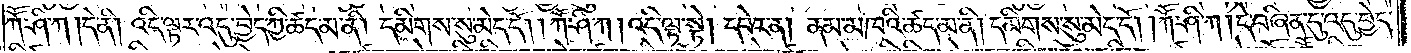ཀཽ་ཤི་ཀ །དེ་ནི། འདི་ལྟར་འདུ་བྱེད་ཀྱི་ཚད་མ་ནི། དམིགས་སུ་མེད་དོ། །ཀཽ་ཤི་ཀ །འདི་ལྟ་སྟེ། དཔེར་ན། ནམ་མཁའི་ཚད་མ་ནི། དམིགས་སུ་མེད་དོ། །ཀཽ་ཤི་ཀ །དེ་བཞིན་དུ་འདུ་བྱེད་
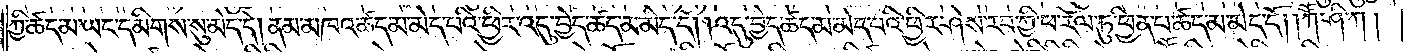ཀྱི་ཚད་མ་ཡང་དམིགས་སུ་མེད་དེ། ནམ་མཁའ་ཚད་མ་མེད་པའི་ཕྱིར་འདུ་བྱེད་ཚད་མ་མེད་དོ། །འདུ་བྱེད་ཚད་མ་མེད་པའི་ཕྱིར་ཤེས་རབ་ཀྱི་ཕ་རོལ་ཏུ་ཕྱིན་པ་ཚད་མ་མེད་དོ། །ཀཽ་ཤི་ཀ།
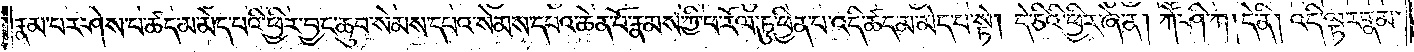རྣམ་པར་ཤེས་པ་ཚད་མ་མེད་པའི་ཕྱིར་བྱང་ཆུབ་སེམས་དཔའ་སེམས་དཔའ་ཆེན་པོ་རྣམས་ཀྱི་ཕ་རོལ་ཏུ་ཕྱིན་པ་འདི་ཚད་མ་མེད་པ་སྟེ། དེ་ཅིའི་ཕྱིར་ཞེ་ན། ཀཽ་ཤི་ཀ །དེ་ནི། འདི་ལྟར་རྣམ་
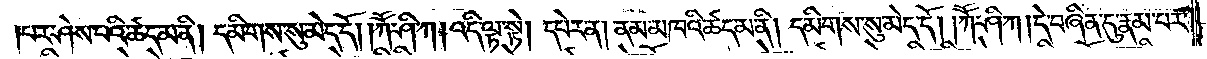པར་ཤེས་པའི་ཚད་མ་ནི། དམིགས་སུ་མེད་དོ། །ཀཽ་ཤི་ཀ །འདི་ལྟ་སྟེ། དཔེར་ན། ནམ་མཁའི་ཚད་མ་ནི། དམིགས་སུ་མེད་དོ། །ཀཽ་ཤི་ཀ །དེ་བཞིན་དུ་རྣམ་པར་
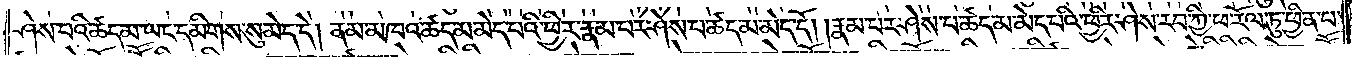ཤེས་པའི་ཚད་མ་ཡང་དམིགས་སུ་མེད་དེ། ནམ་མཁའ་ཚད་མ་མེད་པའི་ཕྱིར་རྣམ་པར་ཤེས་པ་ཚད་མ་མེད་དོ། །རྣམ་པར་ཤེས་པ་ཚད་མ་མེད་པའི་ཕྱིར་ཤེས་རབ་ཀྱི་ཕ་རོལ་ཏུ་ཕྱིན་པ་
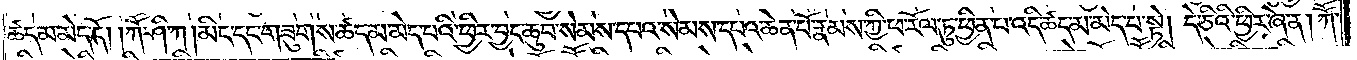ཚད་མ་མེད་དོ། །ཀཽ་ཤི་ཀ །མིང་དང་གཟུགས་ཚད་མ་མེད་པའི་ཕྱིར་བྱང་ཆུབ་སེམས་དཔའ་སེམས་དཔའ་ཆེན་པོ་རྣམས་ཀྱི་ཕ་རོལ་ཏུ་ཕྱིན་པ་འདི་ཚད་མ་མེད་པ་སྟེ། དེ་ཅིའི་ཕྱིར་ཞེ་ན། ཀཽ་
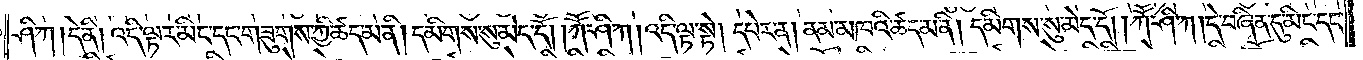ཤི་ཀ །དེ་ནི། འདི་ལྟར་མིང་དང་གཟུགས་ཀྱི་ཚད་མ་ནི། དམིགས་སུ་མེད་དོ། །ཀཽ་ཤི་ཀ །འདི་ལྟ་སྟེ། དཔེར་ན། ནམ་མཁའི་ཚད་མ་ནི། དམིགས་སུ་མེད་དོ། །ཀཽ་ཤི་ཀ །དེ་བཞིན་དུ་མིང་དང་
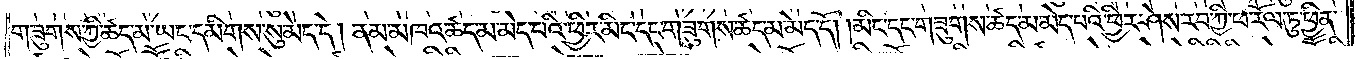གཟུགས་ཀྱི་ཚད་མ་ཡང་དམིགས་སུ་མེད་དེ། ནམ་མཁའ་ཚད་མ་མེད་པའི་ཕྱིར་མིང་དང་གཟུགས་ཚད་མ་མེད་དོ། །མིང་དང་གཟུགས་ཚད་མ་མེད་པའི་ཕྱིར་ཤེས་རབ་ཀྱི་ཕ་རོལ་ཏུ་ཕྱིན་
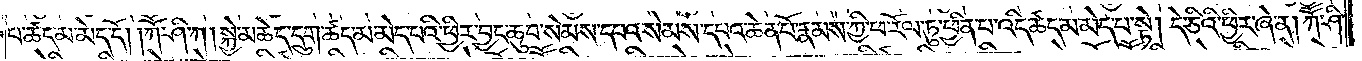པ་ཚད་མ་མེད་དོ། །ཀཽ་ཤི་ཀ །སྐྱེ་མཆེད་དྲུག་ཚད་མ་མེད་པའི་ཕྱིར་བྱང་ཆུབ་སེམས་དཔའ་སེམས་དཔའ་ཆེན་པོ་རྣམས་ཀྱི་ཕ་རོལ་ཏུ་ཕྱིན་པ་འདི་ཚད་མ་མེད་པ་སྟེ། དེ་ཅིའི་ཕྱིར་ཞེ་ན། ཀཽ་ཤི་
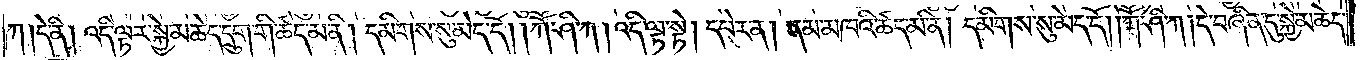ཀ །དེ་ནི། འདི་ལྟར་སྐྱེ་མཆེད་དྲུག་གི་ཚད་མ་ནི། དམིགས་སུ་མེད་དོ། །ཀཽ་ཤི་ཀ །འདི་ལྟ་སྟེ། དཔེར་ན། ནམ་མཁའི་ཚད་མ་ནི། དམིགས་སུ་མེད་དོ། །ཀཽ་ཤི་ཀ །དེ་བཞིན་དུ་སྐྱེ་མཆེད་
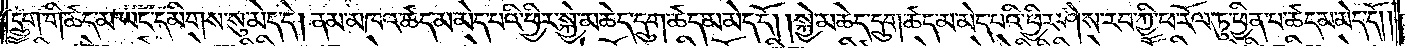དྲུག་གི་ཚད་མ་ཡང་དམིགས་སུ་མེད་དེ། ནམ་མཁའ་ཚད་མ་མེད་པའི་ཕྱིར་སྐྱེ་མཆེད་དྲུག་ཚད་མ་མེད་དོ། །སྐྱེ་མཆེད་དྲུག་ཚད་མ་མེད་པའི་ཕྱིར་ཤེས་རབ་ཀྱི་ཕ་རོལ་ཏུ་ཕྱིན་པ་ཚད་མ་མེད་དོ༎
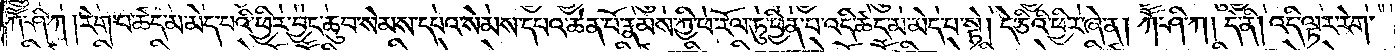ཀཽ་ཤི་ཀ །རེག་པ་ཚད་མ་མེད་པའི་ཕྱིར་བྱང་ཆུབ་སེམས་དཔའ་སེམས་དཔའ་ཆེན་པོ་རྣམས་ཀྱི་ཕ་རོལ་ཏུ་ཕྱིན་པ་འདི་ཚད་མ་མེད་པ་སྟེ། དེ་ཅིའི་ཕྱིར་ཞེ་ན། ཀཽ་ཤི་ཀ །དེ་ནི། འདི་ལྟར་རེག་
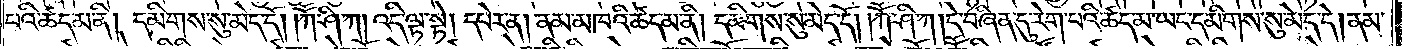པའི་ཚད་མ་ནི། དམིགས་སུ་མེད་དོ། །ཀཽ་ཤི་ཀ །འདི་ལྟ་སྟེ། དཔེར་ན། ནམ་མཁའི་ཚད་མ་ནི། དམིགས་སུ་མེད་དོ། །ཀཽ་ཤི་ཀ །དེ་བཞིན་དུ་རེག་པའི་ཚད་མ་ཡང་དམིགས་སུ་མེད་དེ། ནམ་
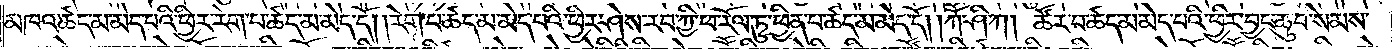མཁའ་ཚད་མ་མེད་པའི་ཕྱིར་རེག་པ་ཚད་མ་མེད་དོ། །རེག་པ་ཚད་མ་མེད་པའི་ཕྱིར་ཤེས་རབ་ཀྱི་ཕ་རོལ་ཏུ་ཕྱིན་པ་ཚད་མ་མེད་དོ། །ཀཽ་ཤི་ཀ། ཚོར་བ་ཚད་མ་མེད་པའི་ཕྱིར་བྱང་ཆུབ་སེམས་
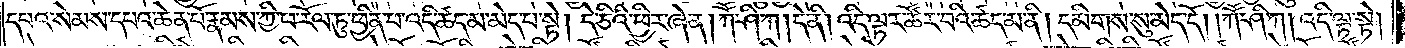དཔའ་སེམས་དཔའ་ཆེན་པོ་རྣམས་ཀྱི་ཕ་རོལ་ཏུ་ཕྱིན་པ་འདི་ཚད་མ་མེད་པ་སྟེ། དེ་ཅིའི་ཕྱིར་ཞེ་ན། ཀཽ་ཤི་ཀ །དེ་ནི། འདི་ལྟར་ཚོར་བའི་ཚད་མ་ནི། དམིགས་སུ་མེད་དོ། །ཀཽ་ཤི་ཀ། འདི་ལྟ་སྟེ།
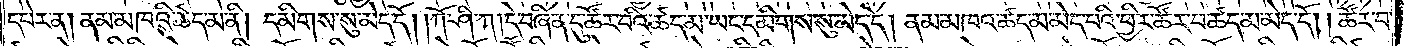དཔེར་ན། ནམ་མཁའི་ཚད་མ་ནི། དམིགས་སུ་མེད་དོ། །ཀཽ་ཤི་ཀ །དེ་བཞིན་དུ་ཚོར་བའི་ཚད་མ་ཡང་དམིགས་སུ་མེད་དེ། ནམ་མཁའ་ཚད་མ་མེད་པའི་ཕྱིར་ཚོར་བ་ཚད་མ་མེད་དོ། །ཚོར་བ་
